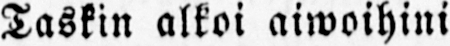Taskin alkoi aiwoihini
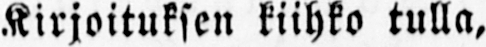Kirjoituksen kiihko tulla.
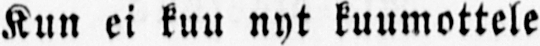Kun ei kuu nyt kuumottele
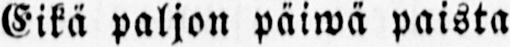Eikä paljon päiwä paista
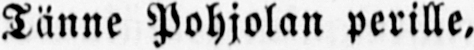Tänne Pohjolan perille,
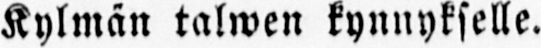Kylmän talwen kynnykselle.
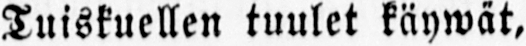Tuiskuellen tuulet käywät,
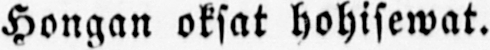Hongan oksat hohisewat.
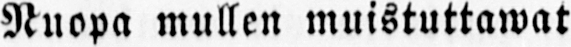Nuopa mullen muistuttawat
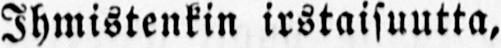Ihmistenkin irstaisuutta,
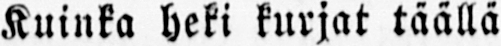Kuinka heti kurjat täällä
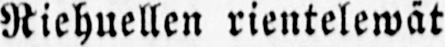Riehuellen rientelewät
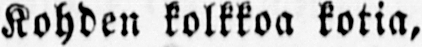Kohden kolkkoa kotia,
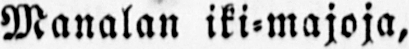Manalan iki-majoja,
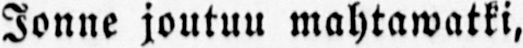Jonne joutuu mahtawatki,
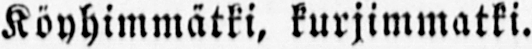Köyhimmätki, kurjimmatki.
